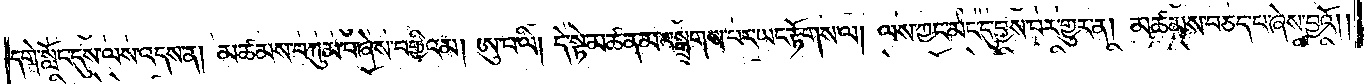དགེ་སློང་དུས་ལས་འདས་ན། མཚམས་བཀུམ་པ་ཞེས་བགྱིའམ། ཨུ་པ་ལི། དེ་སྟེ་མཚན་མ་བསྒྲགས་པར་ཡང་རྟོགས་ལ། ལས་ཀྱང་མང་དུ་བྱས་བར་གྱུར་ན། མཚམས་བཅད་པ་ཞེས་བྱའོ༎
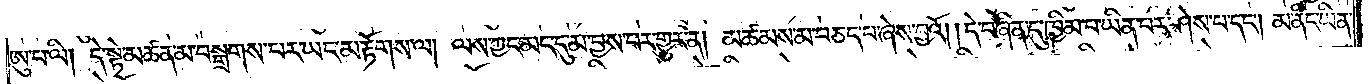ཨུ་པ་ལི། དེ་སྟེ་མཚན་མ་བསྒྲགས་པར་ཡང་མ་རྟོགས་ལ། ལས་ཀྱང་མང་དུ་མ་བྱས་པར་གྱུར་ན། མཚམས་མ་བཅད་པ་ཞེས་བྱའོ། །དེ་བཞིན་དུ་ཁྱིམ་པ་ཡིན་པར་ཤེས་པ་དང༌། མ་ནིང་ཡིན་
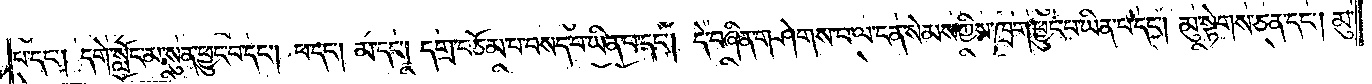པ་དང༌། དགེ་སློང་མ་སུན་ཕྱུང་བ་དང༌། ཕ་དང༌། མ་དང༌། དགྲ་བཅོམ་པ་བསད་པ་ཡིན་པ་དང༌། དེ་བཞིན་གཤེགས་པ་ལ་ངན་སེམས་ཀྱིས་ཁྲག་ཕྱུང་བ་ཡིན་པ་དང༌། མུ་སྟེགས་ཅན་དང༌། མུ་
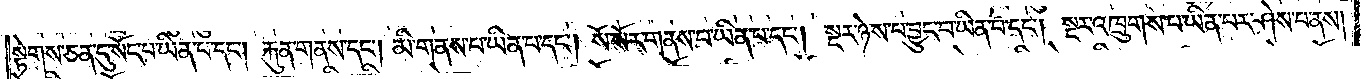སྟེགས་ཅན་དུ་སོང་བ་ཡིན་པ་དང༌། རྐུན་གནས་དང༌། མི་གནས་པ་ཡིན་པ་དང༌། སོ་སོར་གནས་པ་ཡིན་པ་དང༌། སྔར་ཉེས་པ་བྱུང་བ་ཡིན་པ་དང༌། སྔར་འཁྲུགས་པ་ཡིན་པར་ཤེས་པ་ནས།
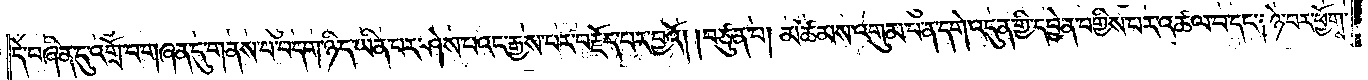དེ་བཞིན་དུ་འགྲོ་བ་གཞན་དུ་གནས་པ་བདག་ཉིད་ཡིན་པར་ཤེས་པའང་རྒྱས་པར་བརྗོད་པར་བྱའོ། །བཙུན་པ། མཚམས་འགུམ་པ་ན་དགེ་འདུན་གྱི་དབྱེན་བགྱིས་པར་འཚལ་བ་དང༌། ཉེ་བར་ཕྱོགས་
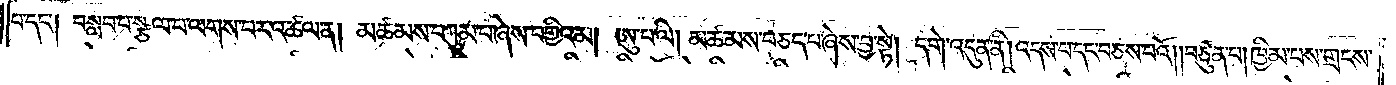པ་དང༌། བསླབ་པ་སྩལ་པ་ལགས་པར་འཚལ་ན། མཚམས་བཀུམ་པ་ཞེས་བགྱིའམ། ཨུ་པ་ལི། མཚམས་བཅད་པ་ཞེས་བྱ་སྟེ། དགེ་འདུན་ནི། འདས་པ་དང་བཅས་པའོ། །བཙུན་པ། ཁྱིམ་པས་གྲངས་
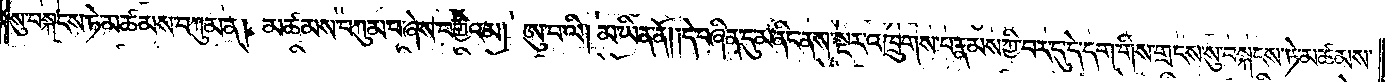སུ་བསྐངས་ཏེ་མཚམས་བཀུམ་ན། མཚམས་བཀུམ་པ་ཞེས་བགྱིའམ། ཨུ་པ་ལི། མ་ཡིན་ནོ། །དེ་བཞིན་དུ་མ་ནིང་ནས་སྔར་འཁྲུགས་པ་རྣམས་ཀྱི་བར་དུ་དེ་དག་གིས་གྲངས་སུ་བསྐངས་ཏེ་མཚམས་
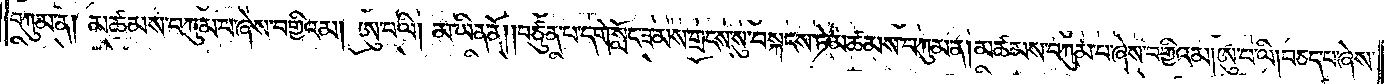བཀུམ་ན། མཚམས་བཀུམ་པ་ཞེས་བགྱིའམ། ཨུ་པ་ལི། མ་ཡིན་ནོ། །བཙུན་པ་དགེ་སློང་ཟ་མས་གྲངས་སུ་བསྐངས་ཏེ་མཚམས་བཀུམ་ན། མཚམས་བཀུམ་པ་ཞེས་བགྱིའམ། ཨུ་པ་ལི། བཅད་པ་ཞེས་
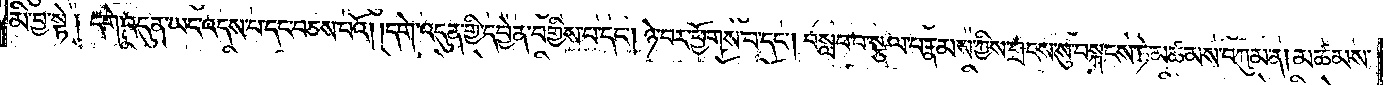མི་བྱ་སྟེ། དགེ་འདུན་ཡང་འདས་པ་དང་བཅས་པའོ། །དགེ་འདུན་གྱི་དབྱེན་བགྱིས་པ་དང༌། ཉེ་བར་ཕྱོགས་པ་དང༌། བསླབ་པ་སྩལ་པ་རྣམས་ཀྱིས་གྲངས་སུ་བསྐངས་ཏེ་མཚམས་བཀུམ་ན། མཚམས་
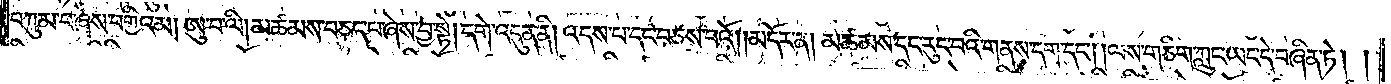བཀུམ་པ་ཞེས་བགྱིའམ། ཨུ་པ་ལི། མཚམས་བཅད་པ་ཞེས་བྱ་སྟེ། དགེ་འདུན་ནི། འདས་པ་དང་བཅས་པའོ། །མདོར་ན། མཚམས་དང་རུང་བའི་གནས་དག་དང༌། །ལས་གཅིག་ཀླུང་ཡང་དེ་བཞིན་ཏེ། །
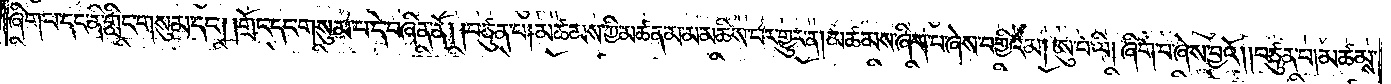ཞིག་པ་དང་ནི་གླིང་གསུམ་དང༌། །གྲོང་དང་གསུམ་པ་དེ་བཞིན་ནོ། །བཙུན་པ། མཚམས་ཀྱི་མཚན་མ་མ་མཆིས་པར་གྱུར་ན། མཚམས་ཞིག་པ་ཞེས་བགྱིའམ། ཨུ་པ་ལི། ཞིག་པ་ཞེས་བྱའོ། །བཙུན་པ། མཚམས་
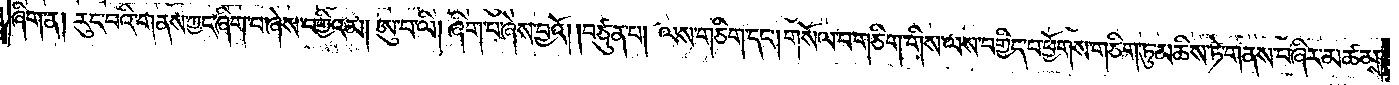ཞིག་ན། རུང་བའི་གནས་ཀྱང་ཞིག་པ་ཞེས་བགྱིའམ། ཨུ་པ་ལི། ཞིག་པ་ཞེས་བྱའོ། །བཙུན་པ། ལས་གཅིག་དང༌། གསོལ་པ་གཅིག་གིས་ལས་བགྱིད་པ་ཕྱོགས་གཅིག་ཏུ་མཆིས་ཏེ་གནས་བཞིར་མཚམས་
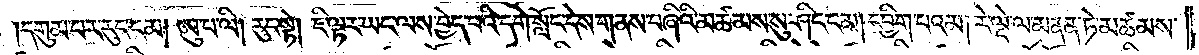།དགུམ་པར་རུང་ངམ། ཨུ་པ་ལི། རུང་སྟེ། ཇི་ལྟར་ཡང་ལས་བྱེད་པའི་དགེ་སློང་དེས་གནས་བཞིའི་མཚམས་སུ་ཤིང་ངམ། དབྱིག་པའམ། རེ་ལྡེ་ལ་མནན་ཏེ་མཚམས་
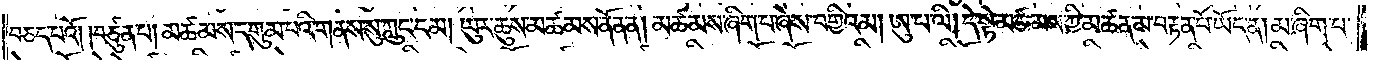བཅད་པའོ། །བཙུན་པ། མཚམས་དགུམ་པའི་གནས་སུ་ཀླུང་ངམ། ཡུར་ཆུས་མཚམས་ནོན་ན། མཚམས་ཞིག་པ་ཞེས་བགྱིའམ། ཨུ་པ་ལི། དེ་སྟེ་མཚམས་ཀྱི་མཚན་མ་བརྟན་པོ་ཡོད་ན། མ་ཞིག་པ་
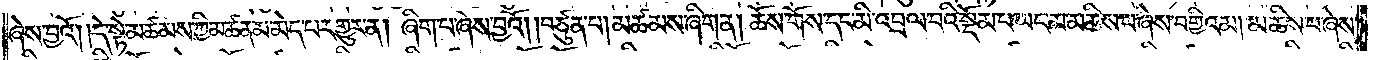ཞེས་བྱའོ། །དེ་སྟེ་མཚམས་ཀྱི་མཚན་མ་མེད་པར་གྱུར་ན། ཞིག་པ་ཞེས་བྱའོ། །བཙུན་པ། མཚམས་ཞིག་ན། ཆོས་གོས་དང་མི་འབྲལ་བའི་སྡོམ་པ་ཡང་མ་མཆིས་པ་ཞེས་བགྱིའམ། མཆིས་པ་ཞེས་
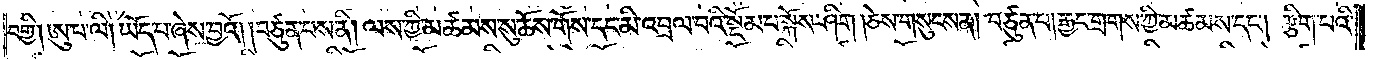བགྱི། ཨུ་པ་ལི། ཡོད་པ་ཞེས་བྱའོ། །བཙུན་པས་ནི། ལས་ཀྱི་མཚམས་སུ་ཆོས་གོས་དང་མི་འབྲལ་བའི་སྡོམ་པ་སྐོས་ཤིག །ཅེས་གསུངས་ན། བཙུན་པ། རྒྱང་གྲགས་ཀྱི་མཚམས་དང༌། རྩིག་པའི་
